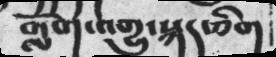གློག་འགྱུ་སྐད་ཅིག
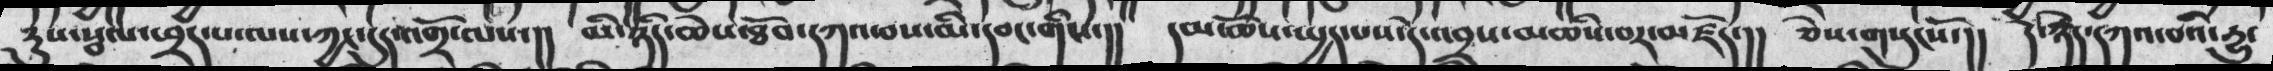རུས་སྦལ་ཕྲད་པ་ལས་ཀྱང་དུད་འགྲོ་ལས་།།  མི་ཉིད་ཆེས་ཐོབ་དཀའ་བས་མི་དབང་གིས་།། དམ་ཆོས་ཡྱད་པས་དེ་འབྲས་མཆིས་བར་མཛོད་།། ཅེས་གསུངསོ་།། དེ་རྙེད་དཀའ་བའི་རྒྱུ་
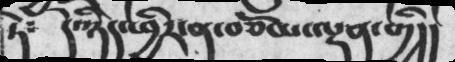ཏེ༴ དེ་ཉིད་ཕྱིར་ན་བཅོམ་ལྡན་གྱི།།
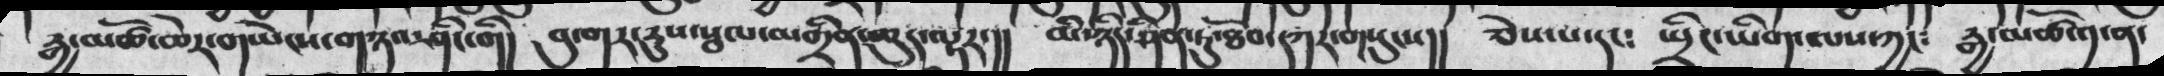རྒྱ་མཚོ་ཆེར་གཡེངས་གཉའ་ཤིང་གི། བུ་གར་རུས་སྦལ་མགྲིན་ཆུད་ལྟར་།། མི་ཉིད་ཤིན་ཏུ་ཐོབ་དཀར་གསུངས།། ཅེས་པ་དང༴ སྤྲིང་ཡིག་ལས་ཀྱང༴ རྒྱ་མཚོ་༡་ན་
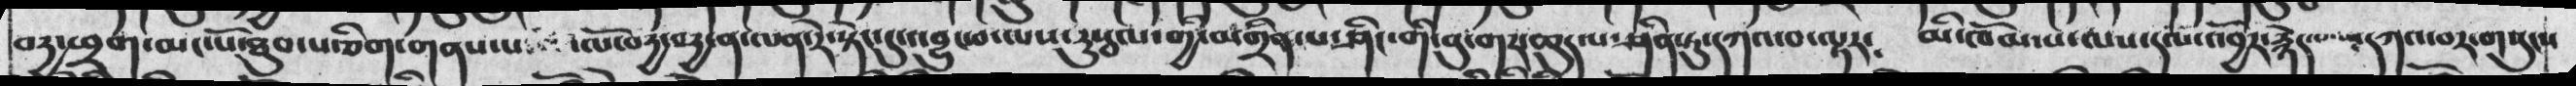བདྱ་ཕྲག་མང་པོ་ཐུབ་པ་ཅིག་གནས་པ ་ལོ་བརྱ་བརྱ་ན་ལན་རེ་སྟེང་དུ་འབྱུང་བ་ལས་སུསྦལ་གྱི་མགྲིན་པ་ཤིང་གི་བུ་གར་ཆུད་པ་ཤིན་ཏུ་དཀའ་བ་ལྟར༴ མི་ཁོམ་པ་ལས་དལ་འབྱོར་རྙེད་པ དཀའ་བར་གསུངས
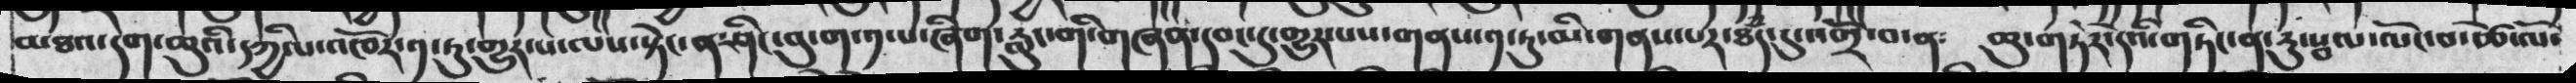མཐའ་དག་ཆུའི་དཀྱིལ་འཁོར་༡་ཏུ་གྱུར་པ་ལས་སྟེང་ན་ཤིང་བུ་ག་༡་པ་ཞིག་རླུང་གི་གཞན་དབང་དུ་གྱུར་པས་གནས་༡་ཏུ་མི་གནས་པར་ཐཾད་དུ་འགྲོ་བ་ན༴ ཆུ་གཏེར་དེའི་གཏིང་ན་རུསྦལ་ལོང་བ་ཚེ་ལོ་
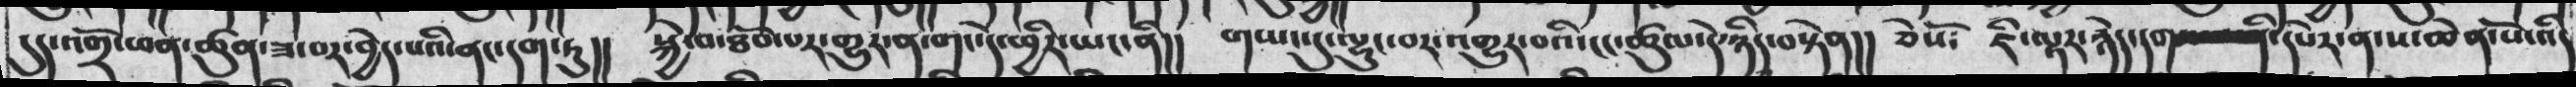དུད་འགྲོ་ཕན་ཚུན་ཟ་བར་བྱེད་པའི་ནང་དག་ཏུ།།   སྐྱེ་བ་ཐོབ་པར་གྱུར་ན་གང་དེ་ཕྱིར་ཡང་ནི།།   གཡང་དུ་ལྷུང་བར་འགྱུར་བའི་ངང་ཚུལ་དེ་ཉིད་བསྟེན།།  ཅེསོ༴   ཇི་ལྟར་རྙེད་དང་ནི་དཔེར་ན་ས་ཆེན་པོ་འདི
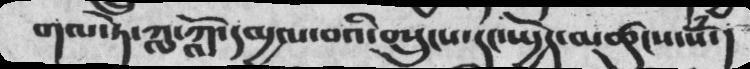གལ་ཏེ་ཀླ་ཀློ་དམྱལ་བའི་བསྲུངས་དང་སྤྱོད་མཚུངས་སོ་།
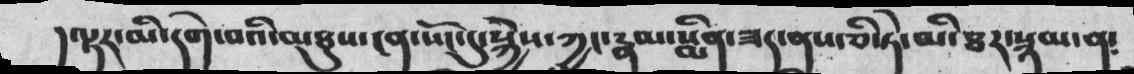།ལྟར་མི་དགེ་བའི་མཐུས་ངན་སོང་དུ་སྐྱེས་ཀྱང་རྣམ་སྨིན་ཟད་ནས་ཅི་ཏེ་མི་ཐར་སྙམ་ན༴
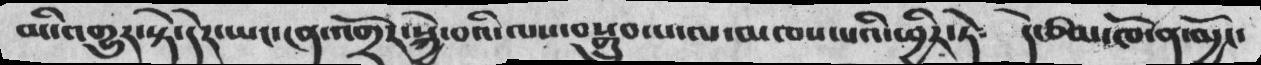མི་འགྱུར་སྟེ་དེར་ཡང་ངན་འགྲོར་སྐྱེ་བའི་ལས་བསྒྲུབ་པ་ལ་མཁས་པའི་ཕྱིར་ཏེ༴  དེ་ཙམ་ཁོ་ན་མྱོང་
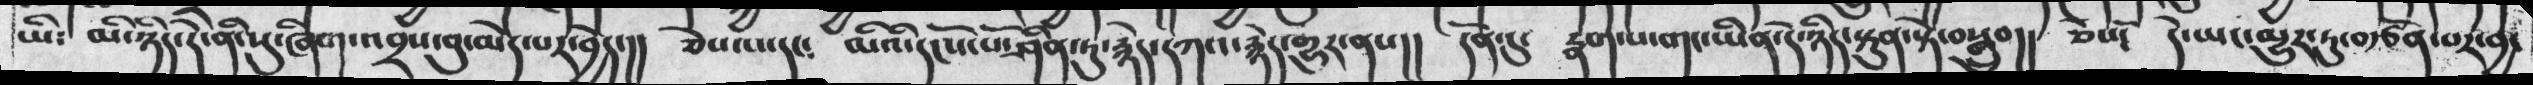ཡི༴ མི་ཉིད་དེ་ནི་སུ་ཞིག་འབྲས་བུ་མེད་པར་བྱེད་།། ཅེས་པ་དང༴ མིའི་དངོས་ོི་ཤིན་ཏུ་རྙེད་དཀའ་རྙེད་གྱུར་ནས།། དོན་དུ་ རྣག་པ་གང་ཡིན་དེ་ཉིད་སྟུན་སྟེ་བསྒྲུབ།། ཅེསོ༴ དེ་ཡཡང་མྱུར་ཏུ་བརྩོན་པར་བྱ་
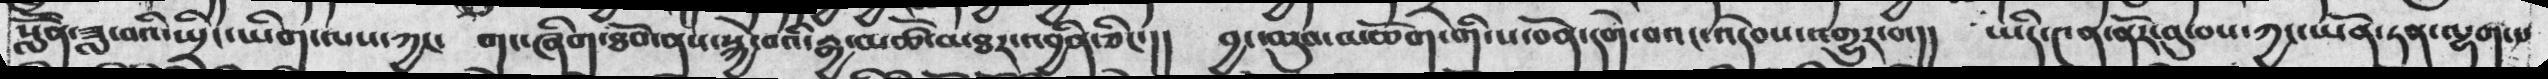སློོན་ཟླ་བའི་སྤྲིང་ཡིག་ལས་ཀྱང་ གང་ཞིག་ཐོབ་ནས་སྐྱེ་བའི་རྒྱ་མཚོ་མཐར་འབྱིན་ཅིང་།། བྱང་ཆུབ་མཆོག་གི་ས་བོན་དགེ་བའང་འདེབས་འགྱུར་བ་།། ཡིད་༤ན་ནོར་བུ་བས་ཀྱང་ཡོན་ཏན་ལྷག་པ
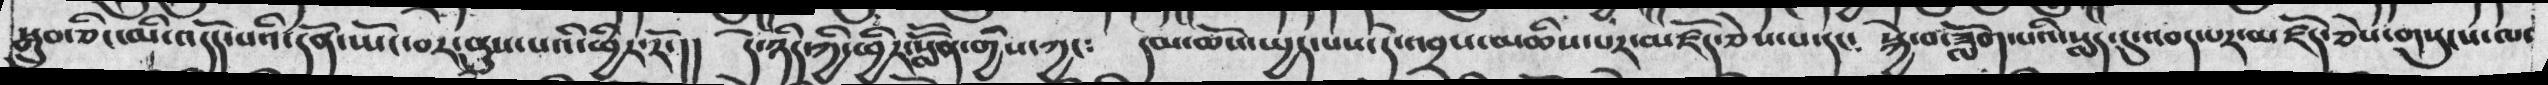སྒྲུབ་ཅིང་མི་འདོད་པའི་དོན་ཡོང་བར་ནུས་པའི་ཕྱིར་རོ་།། དེ་ཉིད་ཀྱི་ཕྱིར་སློོན་གྱིས་ཀྱང༴ དམ་ཆོས་སྤྱད་པས་དེ་འབྲས་མཆིས་པར་མཛོད་ཅེས་པ་དང༴ སྐྱེ་བ་ཟློག་པའི་སླད་དུ་འབད་པར་མཛོད་ཅེས་གསུངས་ལ་
